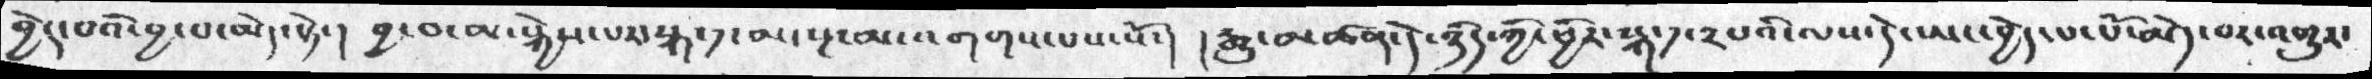བྱེད་པའི་བྱ་བ་མེད་སྟེ་།  བྱ་བ་མ་སྐྱེས་པར་སྐ་༡་མ་སྔ་མ་འགགས་པས་སོ་། །རྒྱུ་མཚན་དེ་ཉིད་ཀྱི་ཕྱིར་སྐ་༡་༢པའི་ལས་དེ་ཡང་བྱེད་པ་པོ་མེད་པར་འགྱུར་
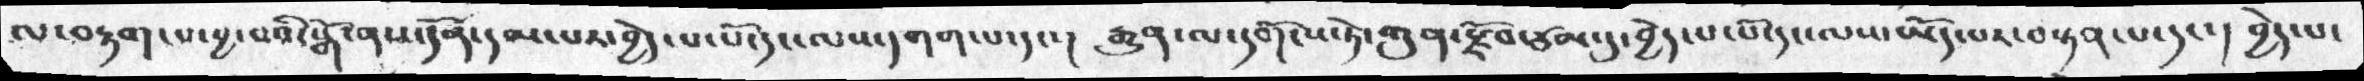ལ་བརྟག་པ་བྱ་བའི་སྒོ་ནས་དོན་དམ་པར་བྱེད་པ་པོ་དང་ལས་དགག་པ་དང་།  རྒྱུན་ལ་དགོངས་ཏེ་ཀུན་རྫོབ་ཙམ་དུ་བྱེད་པ་པོ་དང་ལས་ཡོད་པར་བསྟན་པ་དང་།  བྱེད་པ་
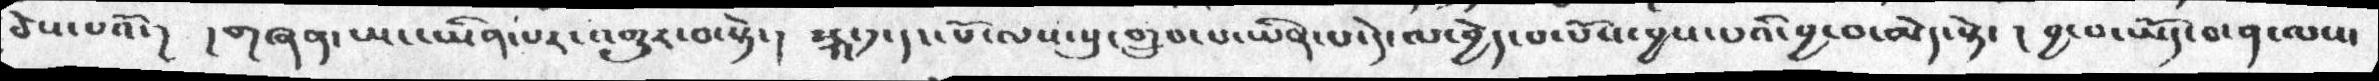ཅེས་པའོ་། །གཞན་ཡང་ཡིན་པར་འགྱུར་བ་སྟེ་།  སྐ་༡་དང་པོ་ལས་སུ་གྲུབ་པ་ཡིན་དེ་ལ་བྱེད་པ་པོས་བྱས་པའི་བྱ་བ་མེད་སྟེ་ ། བྱ་བ་ཡོད་བ་ན་ལས་
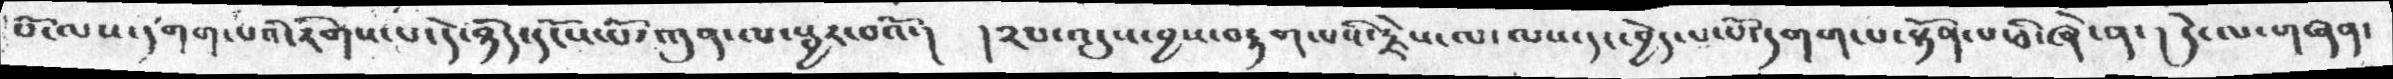པོ་ལས་དགག་པའི་རིགས་པ་དེ་ཉིད་དངོས་པོ་ཀུན་ལ་སྦྱར་བའོ་།  །༢པ་འདུས་བྱས་བརྟག་པའི་རྗེས་ལ་ལས་དང་བྱེད་པ་པོ་དགག་པ་སྟོན་པ་ཅི་ཞེ་ན་། དེ་ལ་གཞན་
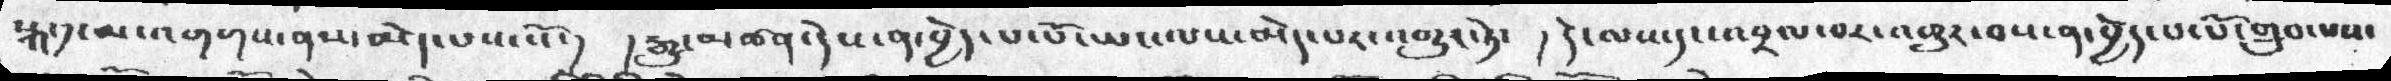སྐ་༡་མ་འགགས་ནས་མེད་པས་སོ་།  །་རྒྱུ་མཚན་དེས་ན་བྱེད་པ་པོ་ཡང་ལས་མེད་པར་འགྱུར་ཏེ་  ། དེ་ལས་དང་འབྲལ་བར་འགྱུར་བས་ན་བྱེད་པ་པོ་གྲུབ་པས་
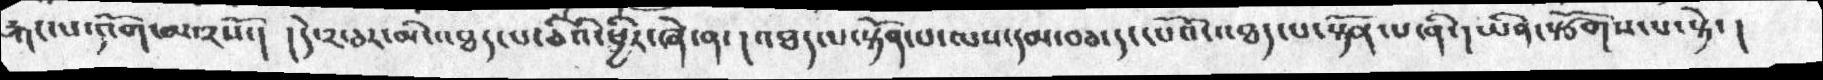རྐང་པ་འོག་མ་༢སོ་།  །དེ་༢་ཅར་མི་འཐད་པ་ཅིའི་ཕྱིར་ཞེ་ན་།  འཐད་པ་སྟོན་པ་ལས་དམ་བཅ་དང་པོའི་འཐད་པ་སྟོན་པ་ནི་།ཡིན་སྩོགས་པ་སྟེ་ །
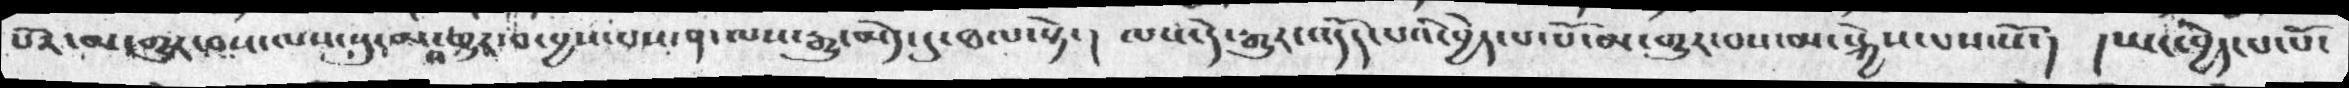པོར་མ་གྱུར་བས་ལས་སུ་མ་འགྱུར་བ་བྱས་པས་ན་ལས་རྒྱུ་མེད་དུ་ཐལ་སྟེ་།  ལས་དེ་རྒྱུར་འདོད་པའི་བྱེད་པ་པོར་མ་གྱུར་བས་མ་སྐྱེས་པས་སོ་།   །ཡང་བྱེ་པ་པོ་
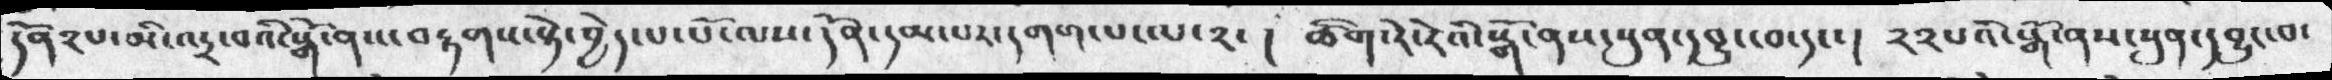དོན༢པ་མི་འདྲ་བའི་སྒོ་ནས་བརྟགས་སྟེ་བྱེད་པ་པོ་ལས་དོན་དམ་པར་དགག་པ་ལ་༢་། ཚིག་རེ་རེའི་སྒོ་ནས་སུན་དབྱུང་བ་དང་།  ༢༢པའི་སྒོ་ནས་སུན་དབྱུང་བ་
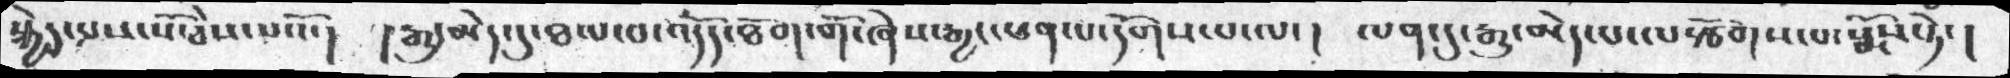སྐྱེད་པས་སོ་ཅེས་པའོ་།  །རྒྱུ་མེད་དུ་ཐལ་བ་འདོད་ཐོག་གོ་ཞེས་རྒྱང་ཕན་པ་དོགས་པ་ལ་། ལན་དུ་རྒྱུ་མེད་པ་ལསྩོགས་པ་སྨོས་ཏེ་།
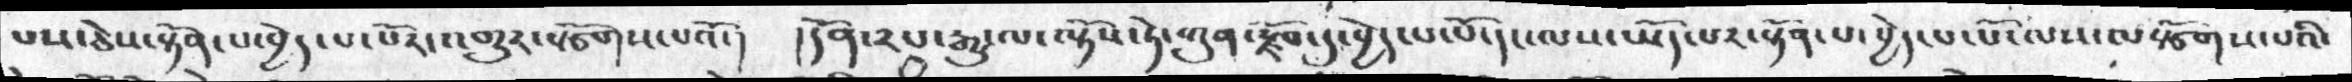པས་ཅེས་སྟོན་པ་བྱེད་པ་པོར་འགྱུར་སྩོགས་པའོ་།  །དོན་༢པ་རྒྱུ་ལ་ལྟོས་ཏེ་ཀུན་རྫོབ་དུ་བྱེད་པ་པོ་དང་ལས་ཡོད་པར་སྟོན་པ་བྱེད་པ་པོ་ལས་ལསྩོགས་པའི་
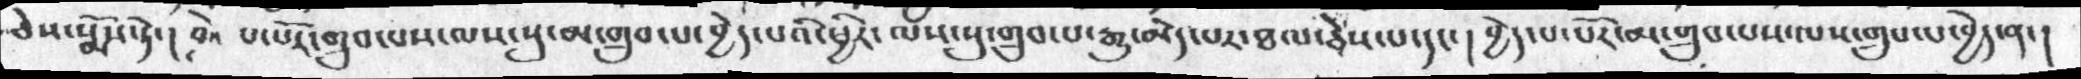ཅེས་སྨོས་ཏེ་།  ཅེས་པ་པོར་གྲུབ་པས་ལས་སུ་མ་གྲུབ་པ་བྱེད་པའི་ཕྱིར་ལས་སུ་གྲུབ་པ་རྒྱུ་མེད་པར་ཐལ་ཅེས་པ་དང་།   བྱེད་པ་པོར་མ་གྲུབ་པས་ལས་གྲུབ་པ་བྱེད་ན་།
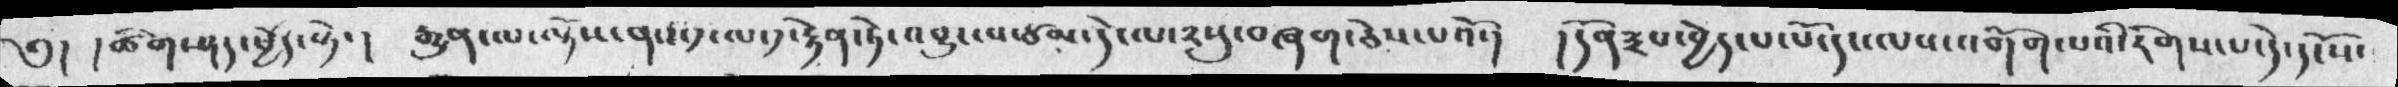༅། །ཚིག་ཤད་ཕྱེད་སྟེ་།  རྒྱུན་ལ་ལྟོས་ནས་༡་ལ་༡་རྟེན་ཏེ་འབྱུང་བ་ཙམ་དེ་ལ་༢སུ་བཞག་ཅེས་པའོ་།  །དོན༣པ་བྱེད་པ་པོ་ལས་འགོག་པའི་རིགས་པ་དེ་དངོས་
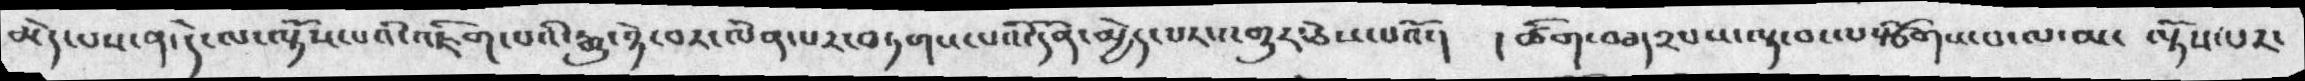མེད་པས་ན་དེ་ལ་ལྟོས་པའི་འཇིག་པའི་རྒྱུ་ཉེ་བར་ལེན་པར་བཏགས་པའི་དོན་མྱེད་པར་འགྱུར་ཅེས་པའོ་། །ཚིག་བཅད༢པས་ལྟ་བ་ལསྩོགས་པ་ལ་མ་ ལྟོས་པར་
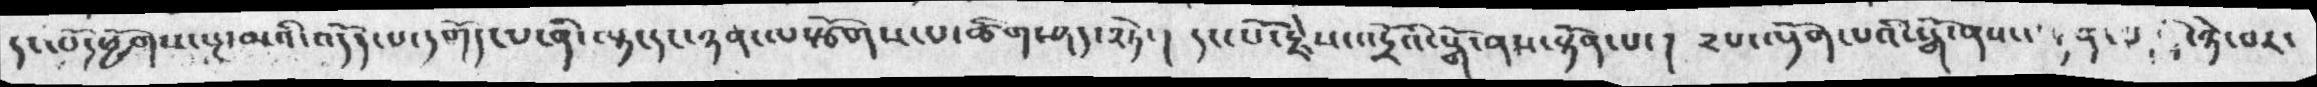དང་པོ་ཕྱོགས་སྔ་མའི་འདོད་པ་དགོད་པ་ན་ིལྟ་དང་ཉན་ལསྩོགས་པ་ཚིགས་ཤད་༢ཏེ་།  དང་པོ་རྗེས་འདྲོའི་སྒོ་ནས་སྟོན་པ་།  ༢པ་ལྡོག་པའི་སྒོ་ནས་བསྟན་པར་དེ་ཉེ་བར་
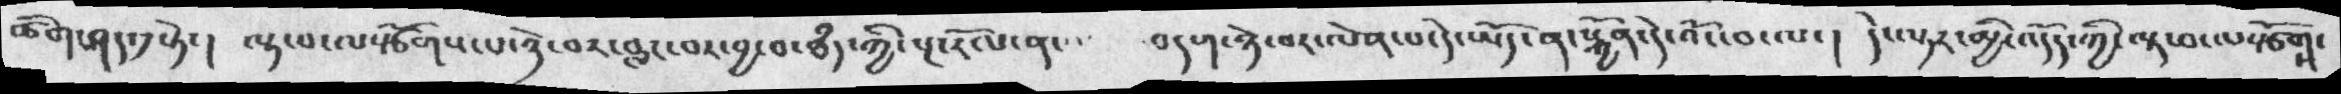ཚིག་ཤད་༡སྟེ་།  ལྟ་བ་ལསྩོགས་པ་ཉེ་བར་བླང་བར་བྱ་བ་ཐཾད་ཀྱི་སྔ་རོལ་ནང་  བདག་ཉེ་བར་ལེན་པ་དེ་ཡོད་ན་སྐྱོན་དེ་འོང་བ་ལ་།  དེ་ལྟར་མྱི་འདོད་ཀྱི་ལྟ་བ་ལསྩོགས་
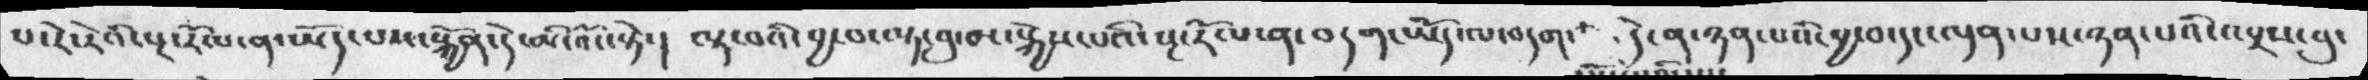པ་རེ་རེའི་སྔ་རོལ་ན་ཡོད་པས་སྐྱོན་དེ་མི་འོང་སྟེ་།  ལྟ་བའི་བྱ་བ་ལྟ་བུ་མ་སྐྱེས་པའི་སྔ་རོལ་ན་བདག་ཡོད་ལ་བདག་    དེ་ན་ཉན་པའི་བྱ་བ་དང་ལྡན་པས་ཉན་པའི་འབྲས་བུ་
